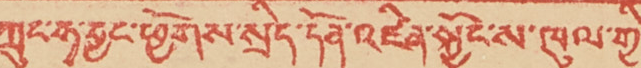ཀྲུང་ཧྭ་བྱང་ཕྱོགས་སྲིད་དོན་འཛིན་སྐྱོང་ས་ཁུལ་གྱི་
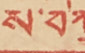ས་བཀྲ།།
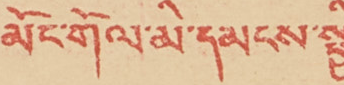མོང་གོལ་མི་དམངས་སྤྱི་
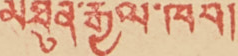མཐུན་རྒྱལ་ཁབ།
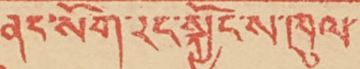ནང་སོག་རང་སྐྱོང་ས་ཁུལ་
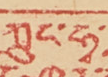ཀྲུང་ཧྭ་
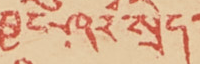བྱང་ཤར་སྲིད་དོན་
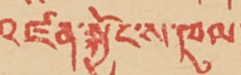འཛིན་སྐྱོང་ས་ཁུལ།
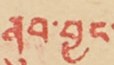ནུབ་བྱང་
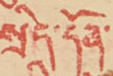སྲིད་དོན་
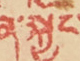འཛིན་སྐྱོང་
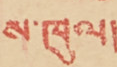ས་ཁུལ།
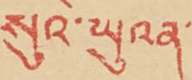སུའེ་ཡུའན་
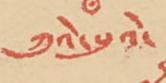ཀུའེ་སུའེ་
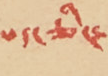པད་ཅིང་
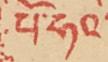པོ་ཧའི་
